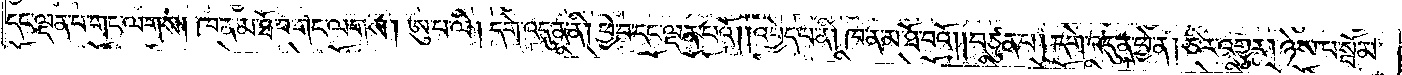དང་ལྡན་པ་གང་ལགས། ཁ་ན་མ་ཐོ་བ་གང་ལགས། ཨུ་པ་ལི། དགེ་འདུན་ནི། ཕྱེ་བ་དང་ལྡན་པའོ། །འབྱེད་པ་ནི། ཁ་ན་མ་ཐོ་བའོ། །བཙུན་པ། དགེ་འདུན་ཕྱེ་ན། ཅིར་འགྱུར། ཉེས་པ་སྦོམ་
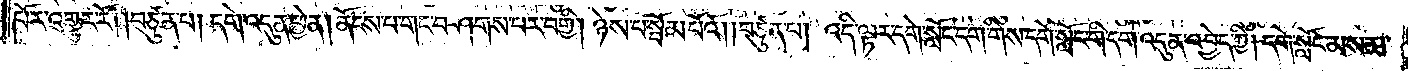པོར་འགྱུར་རོ། །བཙུན་པ། དགེ་འདུན་ཕྱེ་ན། ནོངས་པ་གང་བཤགས་པར་བགྱི། ཉེས་པ་སྦོམ་པོའོ། །བཙུན་པ། འདི་ལྟར་དགེ་སློང་དག་གིས་དགེ་སློང་གི་དགེ་འདུན་འབྱེད་ཀྱི། དགེ་སློང་མས་མ་
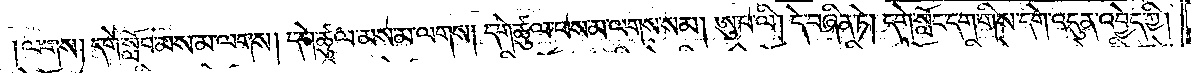ལགས། དགེ་སློབ་མས་མ་ལགས། དགེ་ཚུལ་མས་མ་ལགས། དགེ་ཚུལ་ཕས་མ་ལགས་སམ། ཨུ་པ་ལི། དེ་བཞིན་ཏེ། དགེ་སློང་དག་གིས་དགེ་འདུན་འབྱེད་ཀྱི།
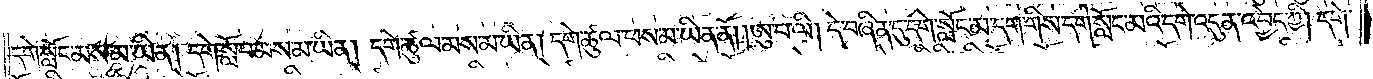དགེ་སློང་མས་མ་ཡིན། དགེ་སློབ་མས་མ་ཡིན། དགེ་ཚུལ་མས་མ་ཡིན། དགེ་ཚུལ་ཕས་མ་ཡིན་ནོ། །ཨུ་པ་ལི། དེ་བཞིན་དུ་དགེ་སློང་མ་དག་གིས་དགེ་སློང་མའི་དགེ་འདུན་འབྱེད་ཀྱི། དགེ་
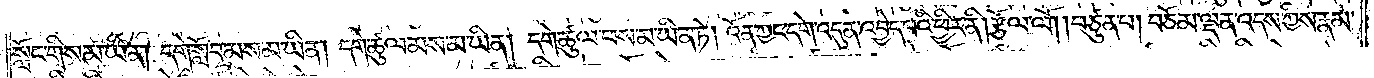སློང་གིས་མ་ཡིན། དགེ་སློབ་མས་མ་ཡིན། དགེ་ཚུལ་མས་མ་ཡིན། དགེ་ཚུལ་ཕས་མ་ཡིན་ཏེ། འོན་ཀྱང་དགེ་འདུན་འབྱེད་པའི་ཕྱིར་ནི། རྩོལ་ལོ། །བཙུན་པ། བཅོམ་ལྡན་འདས་ཀྱིས་རྣམ་
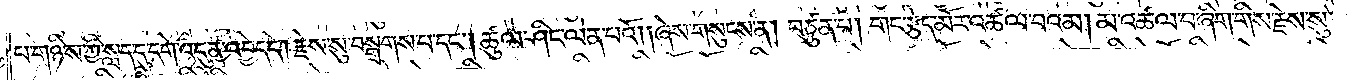པ་གཉིས་ཀྱི་སླད་དུ་དགེ་འདུན་འབྱེད་དེ། རྗེས་སུ་བསྒྲགས་པ་དང༌། ཚུལ་ཤིང་ལེན་པའོ། །ཞེས་གསུངས་ན། བཙུན་པ། གང་རྩེད་མོར་འཚལ་བའམ། མ་འཚལ་བ་ཞིག་གིས་རྗེས་སུ་
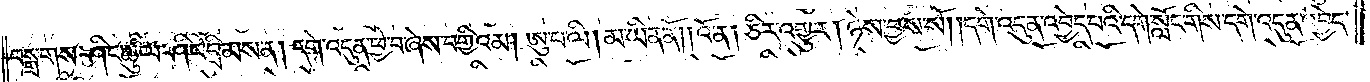བསྒྲགས་ཤིང་ཚུལ་ཤིང་བྲིམས་ན། དགེ་འདུན་ཕྱེ་བ་ཞེས་བགྱིའམ། ཨུ་པ་ལི། མ་ཡིན་ནོ། །འོ་ན། ཅིར་འགྱུར། ཉེས་བྱས་སོ། །དགེ་འདུན་འབྱེད་པའི་དགེ་སློང་གིས་དགེ་འདུན་འབྱེད་
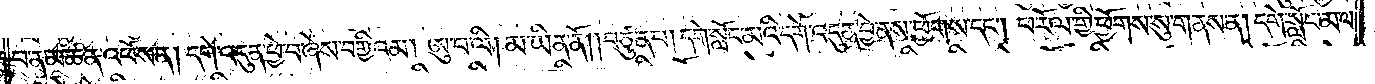བ་ན་མཚན་འཕོས་ན། དགེ་འདུན་ཕྱེ་བ་ཞེས་བགྱིའམ། ཨུ་པ་ལི། མ་ཡིན་ནོ། །བཙུན་པ། དགེ་སློང་མའི་དགེ་འདུན་བྱེ་ནས་ཕྱོགས་དང༌། ཕ་རོལ་གྱི་ཕྱོགས་སུ་གནས་ན། དགེ་སློང་མ་ལ་
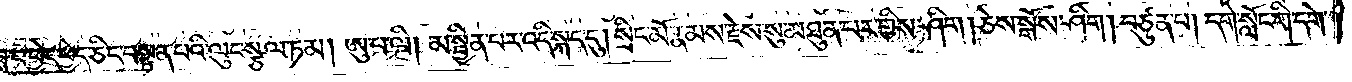ཟླ་བ་ཕྱེད་ཕྱེད་ཅིང་བསྟན་པའི་ལུང་སྩལ་ཏམ། ཨུ་པ་ལི། མ་སྦྱིན་པར་འདི་སྐད་དུ། སྲིང་མོ་རྣམས་རྗེས་སུ་མཐུན་པར་གྱིས་ཤིག །ཅེས་སྒོས་ཤིག །བཙུན་པ། དགེ་སློང་གི་དགེ་
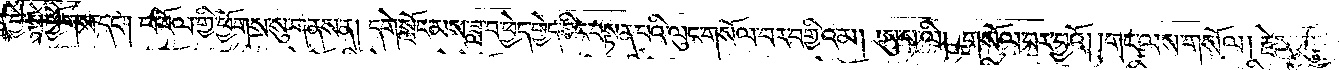བྱེ་སྟེ་ཕྱོགས་དང༌། ཕ་རོལ་གྱི་ཕྱོགས་སུ་གནས་ན། དགེ་སློང་མས་ཟླ་བ་ཕྱེད་ཕྱེད་ཅིང་བསྟན་པའི་ལུང་གསོལ་བར་བགྱིའམ། ཨུ་པ་ལི། གསོལ་བར་བྱའོ། །གང་ལས་གསོལ། རྗེས་སུ་
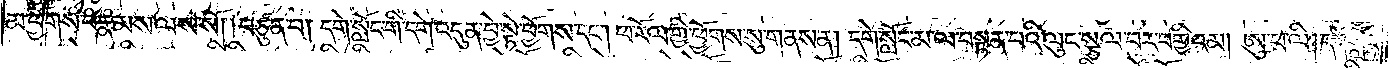མ་ཕྱོགས་པ་རྣམས་ལས་སོ། །བཙུན་པ། དགེ་སློང་གི་དགེ་འདུན་བྱེ་སྟེ་ཕྱོགས་དང༌། ཕ་རོལ་གྱི་ཕྱོགས་སུ་གནས་ན། དགེ་སློང་མ་ལ་བསྟན་པའི་ལུང་སྩལ་བར་བགྱིའམ། ཨུ་པ་ལི། དགེ་སློང་
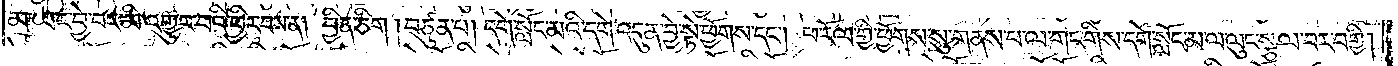མ་ཡང་བྱེ་བར་མི་འགྱུར་བའི་ཕྱིར་བས་ན། བྱིན་ཅིག །བཙུན་པ། དགེ་སློང་མའི་དགེ་འདུན་བྱེ་སྟེ་ཕྱོགས་དང༌། ཕ་རོལ་གྱི་ཕྱོགས་སུ་གནས་པ་ལ་གང་གིས་དགེ་སློང་མ་ལ་ལུང་སྩལ་བར་བགྱི།
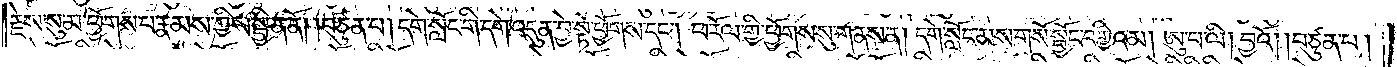རྗེས་སུ་མ་ཕྱོགས་པ་རྣམས་ཀྱིས་སྦྱིན་ནོ། །བཙུན་པ། དགེ་སློང་གི་དགེ་འདུན་བྱེ་སྟེ་ཕྱོགས་དང༌། ཕ་རོལ་གྱི་ཕྱོགས་སུ་གནས་ན། དགེ་སློང་མས་གསོ་སྦྱོང་བགྱིའམ། ཨུ་པ་ལི། བྱའོ། །བཙུན་པ།
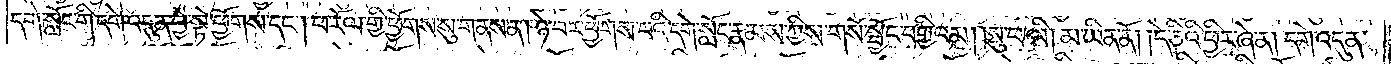དགེ་སློང་གི་དགེ་འདུན་བྱེ་སྟེ་ཕྱོགས་དང༌། ཕ་རོལ་གྱི་ཕྱོགས་སུ་གནས་ན། ཉེ་བར་ཕྱོགས་པའི་དགེ་སློང་རྣམས་ཀྱིས་གསོ་སྦྱོང་བགྱིའམ། ཨུ་པ་ལི། མ་ཡིན་ནོ། །དེ་ཅིའི་ཕྱིར་ཞེ་ན། དགེ་འདུན་
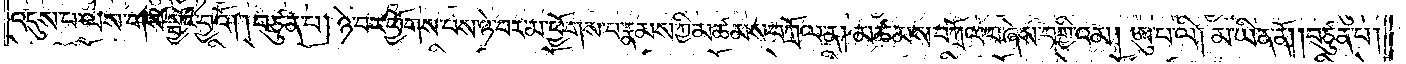འདུས་པ་ལས་གསོ་སྦྱོང་བྱའོ། །བཙུན་པ། ཉེ་བར་ཕྱོགས་པས་ཉེ་བར་མ་ཕྱོགས་པ་རྣམས་ཀྱི་མཚམས་བཀྲོལ་ན། མཚམས་བཀྲོལ་བ་ཞེས་བགྱིའམ། ཨུ་པ་ལི། མ་ཡིན་ནོ། །བཙུན་པ།
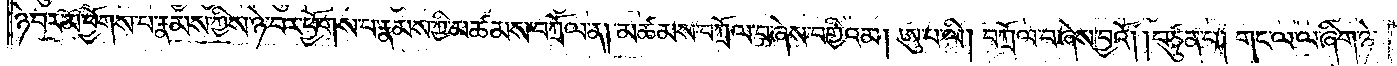ཉེ་བར་མ་ཕྱོགས་པ་རྣམས་ཀྱིས་ཉེ་བར་ཕྱོགས་པ་རྣམས་ཀྱི་མཚམས་བཀྲོལ་ན། མཚམས་བཀྲོལ་བ་ཞེས་བགྱིའམ། ཨུ་པ་ལི། བཀྲོལ་བ་ཞེས་བྱའོ། །བཙུན་པ། གང་ལ་ལ་ཞིག་ཉེ་
